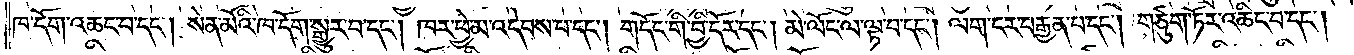ཁ་དོག་འཆང་བ་དང༌། སེན་མོའི་ཁ་དོག་སྒྱུར་བ་དང༌། ཁར་ཕྱེ་མ་འདེབས་པ་དང༌། གདོང་གི་བྱི་དོར་དང༌། མེ་ལོང་ལ་ལྟ་བ་དང༌། ལག་ངར་བརྒྱན་པ་དང༌། གཙུག་ཏོར་འཆིང་བ་དང༌།
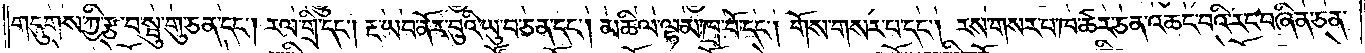གདུགས་ཀྱི་རྩ་བ་སྦུ་གུ་ཅན་དང༌། རལ་གྲི་དང༌། རྔ་ཡབ་ནོར་བུའི་ཡུ་བ་ཅན་དང༌། མཆིལ་ལྷམ་ཁྲ་བོ་དང༌། གོས་གསར་པ་དང༌། རས་གསར་པ་ཁ་ཚར་ཅན་འཆང་བའི་རང་བཞིན་ཅན་
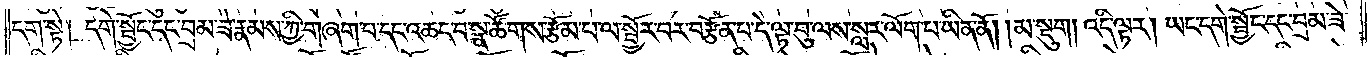དག་སྟེ། དགེ་སྦྱོང་དང་བྲམ་ཟེ་རྣམས་ཀྱི་གཞག་པ་དང་འཆང་བ་སྣ་ཚོགས་རྩོམ་པ་ལ་སྦྱོར་བར་བརྩོན་པ་དེ་ལྟ་བུ་ལས་སླར་ལོག་པ་ཡིན་ནོ། །མ་སྡུག། འདི་ལྟར། ཡང་དགེ་སྦྱོང་དང་བྲམ་ཟེ་
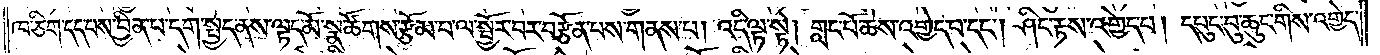ཁ་ཅིག་དད་པས་བྱིན་པ་དག་སྤྱད་ནས་ལྟད་མོ་སྣ་ཚོགས་རྩོམ་པ་ལ་སྦྱོར་བར་བརྩོན་པས་གནས་པ། འདི་ལྟ་སྟེ། གླང་པོ་ཆེས་འགྱེད་པ་དང༌། ཤིང་རྟས་འགྱེད་པ། དཔུང་བུ་ཆུང་གིས་འགྱེད་
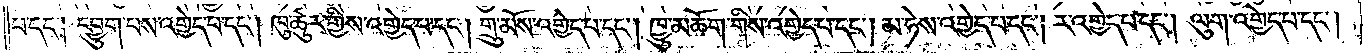པ་དང༌། དབྱུག་པས་འགྱེད་པ་དང༌། ཁུ་ཚུར་གྱིས་འགྱེད་པ་དང༌། གྲུ་མོས་འགྱེད་པ་དང༌། ཁྱུ་མཆོག་གིས་འགྱེད་པ་དང༌། མ་ཧེས་འགྱེད་པ་དང༌། ར་འགྱེད་པ་དང༌། ལུག་འགྱེད་པ་དང༌།
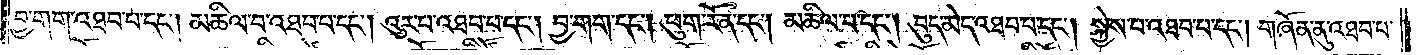བྱ་གག་འཐབ་པ་དང༌། མཆིལ་བ་འཐབ་པ་དང༌། འུར་པ་འཐབ་པ་དང༌། བྱ་གག་དང༌། ཕུག་རོན་དང༌། མཆིལ་པ་དང༌། བུད་མེད་འཐབ་པ་དང༌། སྐྱེས་པ་འཐབ་པ་དང༌། གཞོན་ནུ་འཐབ་པ་
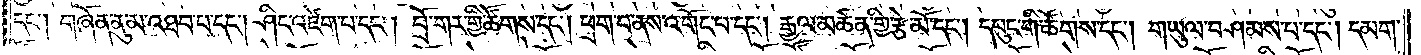དང༌། གཞོན་ནུ་མ་འཐབ་པ་དང༌། ཤིང་འཛེག་པ་དང༌། བྲོ་གར་གྱི་ཚོགས་དང༌། ཕྲག་པ་ནས་འགོང་པ་དང༌། རྒྱལ་མཚན་གྱི་རྩེ་མོ་དང༌། དཔུང་གི་ཚོགས་དང༌། གཡུལ་བཤམས་པ་དང༌། དམག་
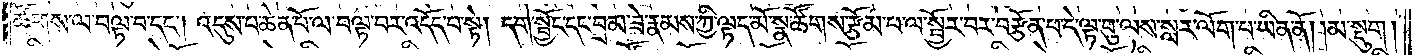ཚོགས་ལ་བལྟ་བ་དང༌། འདུས་པ་ཆེན་པོ་ལ་བལྟ་བར་འདོད་པ་སྟེ། དགེ་སྦྱོང་དང་བྲམ་ཟེ་རྣམས་ཀྱི་ལྟད་མོ་སྣ་ཚོགས་རྩོམ་པ་ལ་སྦྱོར་བར་བརྩོན་པ་དེ་ལྟ་བུ་ལས་སླར་ལོག་པ་ཡིན་ནོ། །མ་སྡུག།
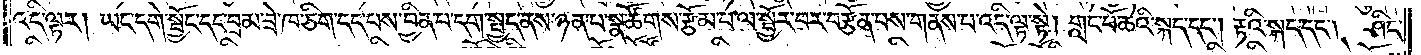འདི་ལྟར། ཡང་དགེ་སྦྱོང་དང་བྲམ་ཟེ་ཁ་ཅིག་དད་པས་བྱིན་པ་དག་སྤྱད་ནས་ཉན་པ་སྣ་ཚོགས་རྩོམ་པ་ལ་སྦྱོར་བར་བརྩོན་པས་གནས་པ་འདི་ལྟ་སྟེ། གླང་པོ་ཆེའི་སྐད་དང༌། རྟའི་སྐད་དང༌། ཤིང་
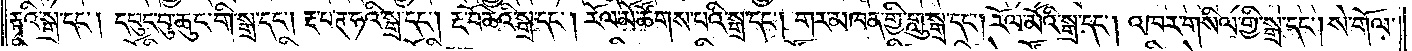རྟའི་སྒྲ་དང༌། དཔུང་བུ་ཆུང་གི་སྒྲ་དང༌། རྔ་པ་ཊ་ཧའི་སྒྲ་དང༌། རྔ་བོ་ཆེའི་སྒྲ་དང༌། རོལ་མོ་ཚོགས་པའི་སྒྲ་དང༌། གར་མཁན་གྱི་གླུ་སྒྲ་དང༌། རོལ་མོའི་སྒྲ་དང༌། འཁར་གསིལ་གྱི་སྒྲ་དང༌། སེ་གོལ་
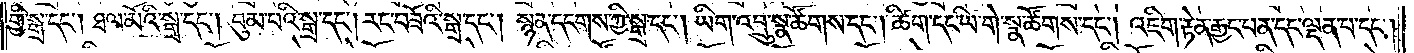གྱི་སྒྲ་དང༌། ཐལ་མོའི་སྒྲ་དང༌། བུམ་པའི་སྒྲ་དང༌། རང་བཟོའི་སྒྲ་དང༌། སྙན་དངགས་ཀྱི་སྒྲ་དང༌། ཡིག་འབྲུ་སྣ་ཚོགས་དང༌། ཚིག་དང་ཡི་གེ་སྣ་ཚོགས་དང༌། འཇིག་རྟེན་རྒྱང་པན་དང་ལྡན་པ་དང༌།
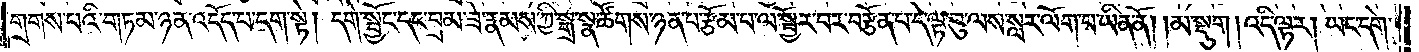གྲགས་པའི་གཏམ་ཉན་འདོད་པ་དག་སྟེ། དགེ་སྦྱོང་དང་བྲམ་ཟེ་རྣམས་ཀྱི་སྒྲ་སྣ་ཚོགས་ཉན་པ་རྩོམ་པ་ལ་སྦྱོར་བར་བརྩོན་པ་དེ་ལྟ་བུ་ལས་སླར་ལོག་པ་ཡིན་ནོ། །མ་སྡུག། འདི་ལྟར། ཡང་དགེ་
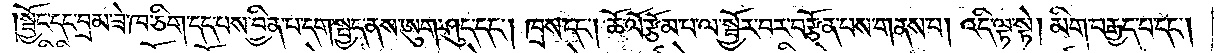སྦྱོང་དང་བྲམ་ཟེ་ཁ་ཅིག་དད་པས་བྱིན་པ་དག་སྤྱད་ནས་ཨུག་ཤུད་དང༌། ཁྲས་དང༌། ཆོ་ལོ་རྩོམ་པ་ལ་སྦྱོར་བར་བརྩོན་པས་གནས་པ། འདི་ལྟ་སྟེ། མིག་བརྒྱད་པ་དང༌།
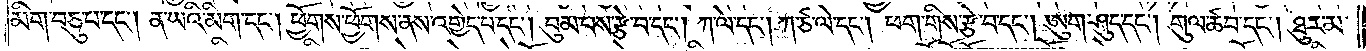མིག་བཅུ་པ་དང༌། ན་ཡའི་མིག་དང༌། ཕྱོགས་ཕྱོགས་ནས་འགྱེད་པ་དང༌། བུམ་པས་རྩེ་བ་དང༌། ཀ་ལེ་དང༌། ཀ་ཙ་ལེ་དང༌། ཕག་གིས་རྩ་བ་དང༌། ཨུག་ཤུད་དང༌། གུལ་ཚབ་དང༌། ཐུར་མ་
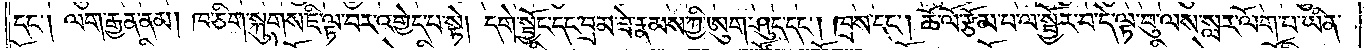དང༌། ལག་རྒྱན་ནམ། ཁ་ཅིག་སྐུགས་ཇི་ལྟ་བར་འགྱེད་པ་སྟེ། དགེ་སྦྱོང་དང་བྲམ་ཟེ་རྣམས་ཀྱི་ཨུག་ཤུད་དང༌། ཁྲས་དང༌། ཆོ་ལོ་རྩོམ་པ་ལ་སྦྱོར་བ་དེ་ལྟ་བུ་ལས་སླར་ལོག་པ་ཡིན་
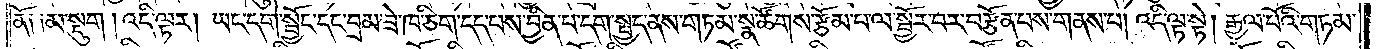ནོ༑ ༑མ་སྡུག །འདི་ལྟར། ཡང་དགེ་སྦྱོང་དང་བྲམ་ཟེ་ཁ་ཅིག་དད་པས་བྱིན་པ་དག་སྤྱད་ནས་གཏམ་སྣ་ཚོགས་རྩོམ་པ་ལ་སྦྱོར་བར་བརྩོན་པས་གནས་པ། འདི་ལྟ་སྟེ། རྒྱལ་པོའི་གཏམ་
